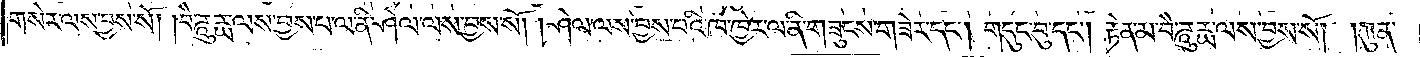གསེར་ལས་བྱས་སོ། །བཻ་ཌཱུཪྻ་ལས་བྱས་པ་ལ་ནི་ཤེལ་ལས་བྱས་སོ། །ཤེལ་ལས་བྱས་པའི་ཁ་ཁྱེར་ལ་ནི་གཟུངས་གཟེར་དང༌། གདུང་བུ་དང༌། རྟེན་མ་བཻ་ཌཱུཪྻ་ལས་བྱས་སོ། །ཀུན་
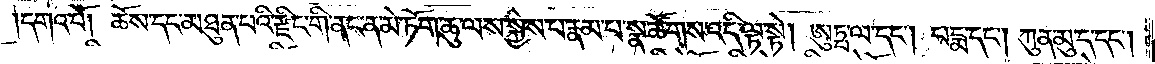དགའ་བོ། ཆོས་དང་མཐུན་པའི་རྫིང་གི་ནང་ན་མེ་ཏོག་ཆུ་ལས་སྐྱེས་པ་རྣམ་པ་སྣ་ཚོགས་འདི་ལྟ་སྟེ། ཨུཏྤ་ལ་དང༌། པདྨ་དང༌། ཀུན་མུ་ད་དང༌།
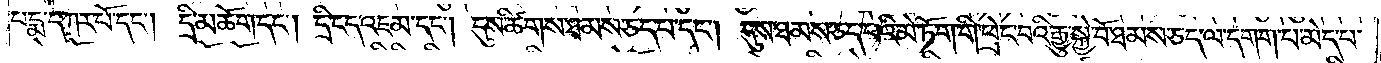པདྨ་དཀར་པོ་དང༌། དྲི་མཆོག་དང༌། དྲི་ངད་འཇམ་དང༌། དུས་ཚིགས་ཐམས་ཅད་པ་དང༌། དུས་ཐམས་ཅད་པའི་མེ་ཏོག་གི་ཕྲེང་བའི་རྒྱུ་སྐྱེ་བོ་ཐམས་ཅད་ལ་དགག་པ་མེད་པ་
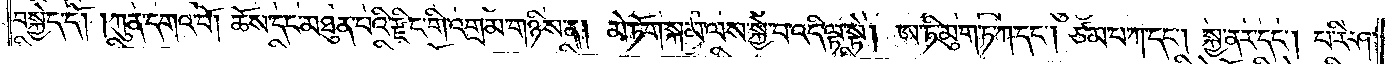བསྐྱེད་དོ། །ཀུན་དགའ་བོ། ཆོས་དང་མཐུན་པའི་རྫིང་གི་འགྲམ་གཉིས་ན། མེ་ཏོག་སྐམ་ལས་སྐྱེ་བ་འདི་ལྟ་སྟེ། ཨ་ཏི་མུ་ག་ཏ་ཀ་དང༌། ཙམ་པ་ཀ་དང༌། སྐྱ་ནར་དང༌། པ་རི་ཤ་
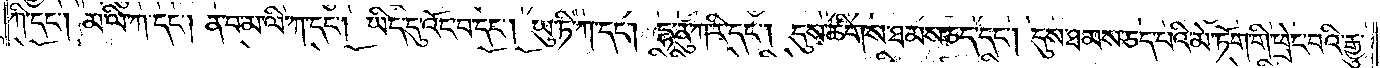ཀི་དང༌། མ་ལི་ཀ་དང༌། ན་བ་མ་ལི་ཀ་དང༌། ཡིད་དུ་འོང་བ་དང༌། ཡུ་ཏི་ཀ་དང༌། དྷ་ནུ་ཀ་རི་དང༌། དུས་ཚིགས་ཐམས་ཅད་དང༌། དུས་ཐམས་ཅད་པའི་མེ་ཏོག་གི་ཕྲེང་བའི་རྒྱུ་
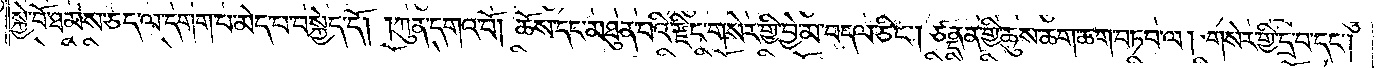སྐྱེ་བོ་ཐམས་ཅད་ལ་དགག་པ་མེད་པ་བསྐྱེད་དོ། །ཀུན་དགའ་བོ། ཆོས་དང་མཐུན་པའི་རྫིང་གསེར་གྱི་བྱེ་མ་བདལ་ཅིང༌། ཙནྡན་གྱི་ཆུས་ཆག་ཆག་བཏབ་ལ། གསེར་གྱི་དྲ་བ་དང༌།
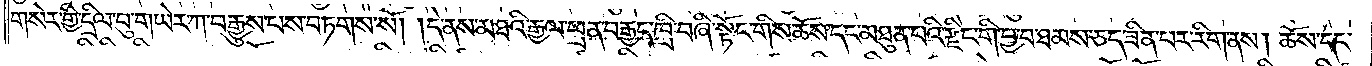གསེར་གྱི་དྲིལ་བུ་གཡེར་ཀ་བརྒྱུས་པས་བཏགས་སོ། །དེ་ནས་མཐའི་རྒྱལ་ཕྲན་བརྒྱད་ཁྲི་བཞི་སྟོང་གིས་ཆོས་དང་མཐུན་པའི་རྫིང་གི་བྱ་བ་ཐམས་ཅད་ཟིན་པར་རིག་ནས། ཆོས་དང་
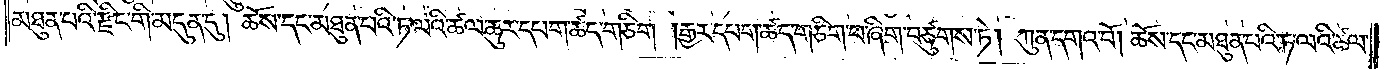མཐུན་པའི་རྫིང་གི་མདུན་དུ། ཆོས་དང་མཐུན་པའི་ཏ་ལའི་ཚལ་ཆུར་དཔག་ཚད་གཅིག །རྒྱར་དཔག་ཚད་གཅིག་པ་ཞིག་བཙུགས་ཏེ། ཀུན་དགའ་བོ། ཆོས་དང་མཐུན་པའི་ཏ་ལའི་ཚལ་
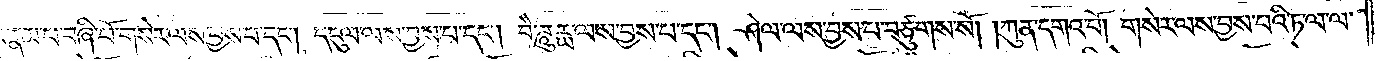དུ་ཏ་ལ་རྣམ་པ་བཞི་པོ་གསེར་ལས་བྱས་པ་དང༌། དངུལ་ལས་བྱས་པ་དང༌། བཻ་ཌཱུཪྻ་ལས་བྱས་པ་དང༌། ཤེལ་ལས་བྱས་པ་བཙུགས་སོ། །ཀུན་དགའ་བོ། གསེར་ལས་བྱས་པའི་ཏ་ལ་ལ་
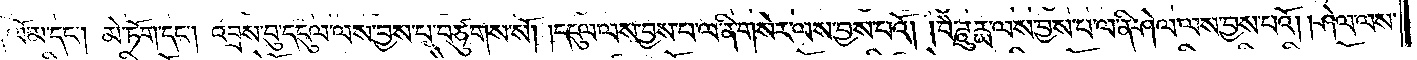ནི་ལོ་མ་དང༌། མེ་ཏོག་དང༌། འབྲས་བུ་དངུལ་ལས་བྱས་པ་བཙུགས་སོ། །དངུལ་ལས་བྱས་པ་ལ་ནི་གསེར་ལས་བྱས་པའོ། །བཻ་ཌཱུརྻ་ལས་བྱས་པ་ལ་ནི་ཤེལ་ལས་བྱས་པའོ། །ཤེལ་ལས་
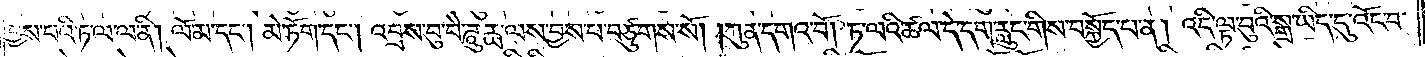བྱས་པའི་ཏ་ལ་ལ་ནི། ལོ་མ་དང༌། མེ་ཏོག་དང༌། འབྲས་བུ་བཻ་ཌཱུརྻ་ལས་བྱས་པ་བཙུགས་སོ། །ཀུན་དགའ་བོ། ཏ་ལའི་ཚལ་དེ་དག་རླུང་གིས་བསྐྱོད་པ་ན། འདི་ལྟ་བུའི་སྒྲ་ཡིད་དུ་འོང་
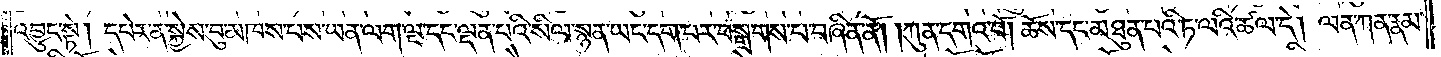འབྱུང་སྟེ། དཔེར་ན་སྐྱེས་བུ་མཁས་པས་ཡན་ལག་ལྔ་དང་ལྡན་པའི་སིལ་སྙན་ཡང་དག་པར་བསྒྲགས་པ་བཞིན་ནོ། །ཀུན་དགའ་བོ། ཆོས་དང་མཐུན་པའི་ཏ་ལའི་ཚལ་དེ། ལན་ཀན་རྣམ་
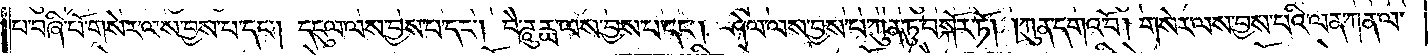པ་བཞི་པོ་གསེར་ལས་བྱས་པ་དང༌། དངུལ་ལས་བྱས་པ་དང༌། བཻ་ཌཱུརྻ་ལས་བྱས་པ་དང༌། ཤེལ་ལས་བྱས་པ་ཀུན་ཏུ་བསྐོར་ཏོ། །ཀུན་དགའ་བོ། གསེར་ལས་བྱས་པའི་ལན་ཀན་ལ་
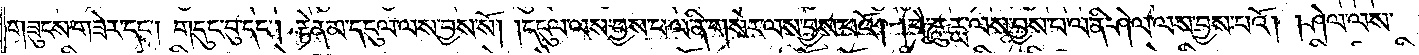གཟུངས་གཟེར་དང༌། གདུང་བུ་དང༌། རྟེན་མ་དངུལ་ལས་བྱས་སོ། །དངུལ་ལས་བྱས་པ་ལ་ནི་གསེར་ལས་བྱས་པའོ། །བཻ་ཌཱུརྻ་ལས་བྱས་པ་ལ་ནི་ཤེལ་ལས་བྱས་པའོ། །ཤེལ་ལས་
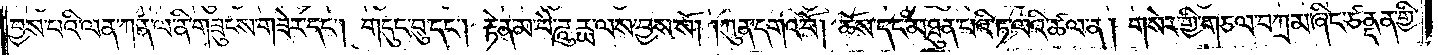བྱས་པའི་ལན་ཀན་ལ་ནི་གཟུངས་གཟེར་དང༌། གདུང་བུ་དང༌། རྟེན་མ་བཻ་ཌཱུརྻ་ལས་བྱས་སོ། །ཀུན་དགའ་བོ། ཆོས་དང་མཐུན་པའི་ཏ་ལའི་ཚལ་ན། གསེར་གྱི་གཅལ་བཀྲམ་ཞིང་ཙནྡན་གྱི་
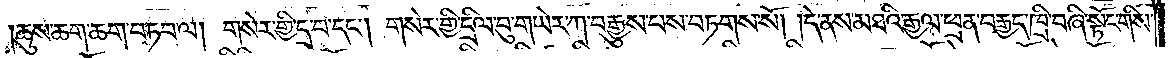ཆུས་ཆག་ཆག་བཏབ་ལ། གསེར་གྱི་དྲ་བ་དང༌། གསེར་གྱི་དྲིལ་བུ་གཡེར་ཀ་བརྒྱུས་པས་བཏགས་སོ། །དེ་ནས་མཐའི་རྒྱལ་ཕྲན་བརྒྱད་ཁྲི་བཞི་སྟོང་གིས་
